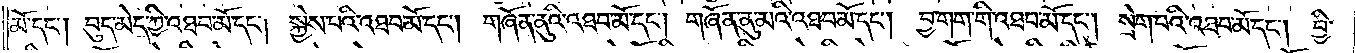མོ་དང༌། བུད་མེད་ཀྱི་འཐབ་མོ་དང༌། སྐྱེས་པའི་འཐབ་མོ་དང༌། གཞོན་ནུའི་འཐབ་མོ་དང༌། གཞོན་ནུ་མའི་འཐབ་མོ་དང༌། བྱ་གག་གི་འཐབ་མོ་དང༌། སྲེག་པའི་འཐབ་མོ་དང༌། བྱི་
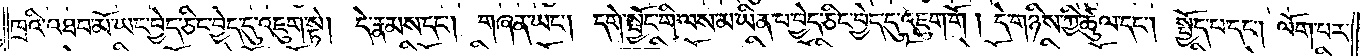ཁྲའི་འཐབ་མོ་ཡང་བྱེད་ཅིང་བྱེད་དུ་འཇུག་སྟེ། དེ་རྣམས་དང༌། གཞན་ཡང༌། དགེ་སྦྱོང་གི་ལས་མ་ཡིན་པ་བྱེད་ཅིང་བྱེད་དུ་འཇུག་གོ །དེ་གཉིས་ཀྱི་ཚུལ་དང༌། སྤྱོད་པ་དང༌། ལོག་པར་
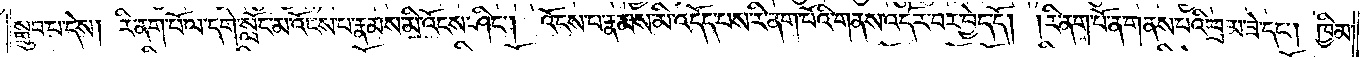སྒྲུབ་པ་དེས། རི་ནག་པོ་ལ་དགེ་སློང་མ་འོངས་པ་རྣམས་མི་འོངས་ཤིང༌། འོངས་པ་རྣམས་མི་འདོད་པས་རི་ནག་པོའི་གནས་འདོར་བར་བྱེད་དོ། །རི་ནག་པོ་ན་གནས་པའི་བྲམ་ཟེ་དང༌། ཁྱིམ་
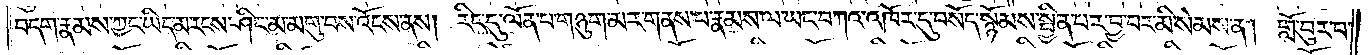བདག་རྣམས་ཀྱང་ཡིད་མ་རངས་ཤིང་མ་མགུ་བས་འོངས་ནས། རིང་དུ་ལོན་པ་གཉུག་མར་གནས་པ་རྣམས་ལ་ཡང་བཀའ་འཁོར་དུ་བསོད་སྙོམས་སྦྱིན་པར་བྱ་བར་མི་སེམས་ན། གློ་བུར་བ་
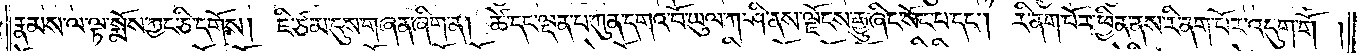རྣམས་ལ་ལྟ་སྨོས་ཀྱང་ཅི་དགོས། ཇི་ཙམ་དུས་གཞན་ཞིག་ན། ཚེ་དང་ལྡན་པ་ཀུན་དགའ་བོ་ཡུལ་ཀ་ཤི་ནས་ལྗོངས་རྒྱུ་ཞིང་སོང་བ་དང༌། རི་ནག་པོར་ཕྱིན་ནས་རི་ནག་པོར་འདུག་གོ །
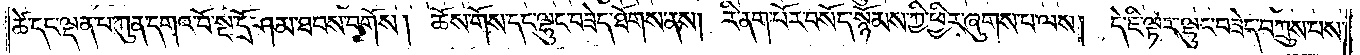ཚེ་དང་ལྡན་པ་ཀུན་དགའ་བོ་སྔ་དྲོ་ཤམ་ཐབས་བགོས། ཆོས་གོས་དང་ལྷུང་བཟེད་ཐོགས་ནས། རི་ནག་པོར་བསོད་སྙོམས་ཀྱི་ཕྱིར་ཞུགས་པ་ལས། དེ་ཇི་ལྟར་ལྷུང་བཟེད་བཀྲུས་པས་
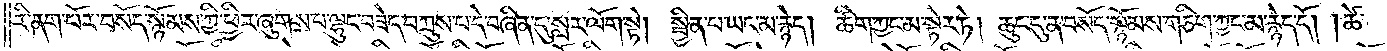རི་ནག་པོར་བསོད་སྙོམས་ཀྱི་ཕྱིར་ཞུགས་པ་ལྷུང་བཟེད་བཀྲུས་པ་དེ་བཞིན་དུ་སླར་ལོག་སྟེ། སྦྱིན་པ་ཡང་མ་རྙེད། ཚིག་ཀྱང་མ་སྟེར་ཏེ། ཆུང་དུ་ན་བསོད་སྙོམས་གཅིག་ཀྱང་མ་རྙེད་དོ། །ཚེ་
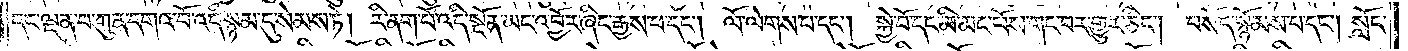དང་ལྡན་པ་ཀུན་དགའ་བོ་འདི་སྙམ་དུ་སེམས་ཏེ། རི་ནག་པོ་འདི་སྔོན་ཡང་འབྱོར་ཞིང་རྒྱས་པ་དང༌། ལོ་ལེགས་པ་དང༌། སྐྱེ་བོ་དང་མི་མང་པོས་གང་བར་གྱུར་ཅིང༌། བསོད་སྙོམས་པ་དང༌། སློང་
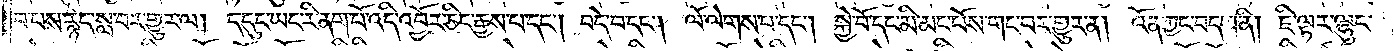བ་པས་རྙེད་སླ་བར་གྱུར་ལ། ད་དུང་ཡང་རི་ནག་པོ་འདི་འབྱོར་ཅིང་རྒྱས་པ་དང༌། བདེ་བ་དང༌། ལོ་ལེགས་པ་དང༌། སྐྱེ་བོ་དང་མི་མང་པོས་གང་བར་གྱུར་ན། འོན་ཀྱང་བདག་ནི། ཇི་ལྟར་ལྷུང་
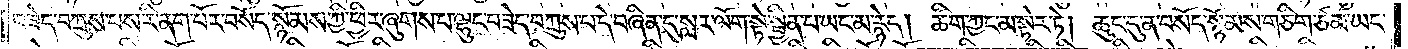བཟེད་བཀྲུས་པས་རི་ནག་པོར་བསོད་སྙོམས་ཀྱི་ཕྱིར་ཞུགས་པ་ལྷུང་བཟེད་བཀྲུས་པ་དེ་བཞིན་དུ་སླར་ལོག་སྟེ་སྦྱིན་པ་ཡང་མ་རྙེད། ཚིག་ཀྱང་མ་སྟེར་ཏེ། ཆུང་དུ་ན་བསོད་སྙོམས་གཅིག་ཙམ་ཡང་
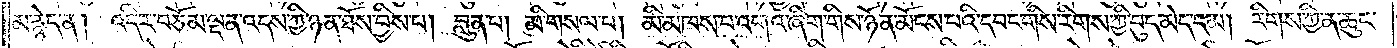མ་རྙེད་ན། འདིར་བཅོམ་ལྡན་འདས་ཀྱི་ཉན་ཐོས་བྱིས་པ། བླུན་པ། མི་གསལ་པ། མི་མཁས་པ་འགའ་ཞིག་གིས་ཉོན་མོངས་པའི་དབང་གིས་རིགས་ཀྱི་བུད་མེད་དམ། རིགས་ཀྱི་ན་ཆུང་
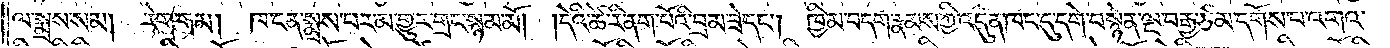ལ་སྨྲས་སམ། རེག་གམ། ཁ་ངན་སྨྲས་པར་མ་གྱུར་གྲང་སྙམ་མོ། །དེའི་ཚེ་རི་ནག་པོའི་བྲམ་ཟེ་དང༌། ཁྱིམ་བདག་རྣམས་ཀྱི་འདུན་ཁང་དུ་དགེ་བསྙེན་ལྔ་བརྒྱ་ཙམ་དགོས་པ་འགའ་
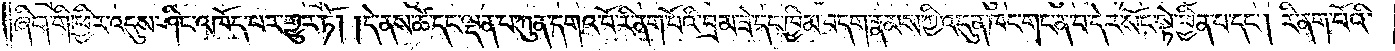ཞིག་གི་ཕྱིར་འདུས་ཤིང་འཁོད་པར་གྱུར་ཏོ། །དེ་ནས་ཚེ་དང་ལྡན་པ་ཀུན་དགའ་བོ་རི་ནག་པོའི་བྲམ་ཟེ་དང་ཁྱིམ་བདག་རྣམས་ཀྱི་འདུན་ཁང་གང་ན་བ་དེར་སོང་སྟེ་ཕྱིན་པ་དང༌། རི་ནག་པོའི་
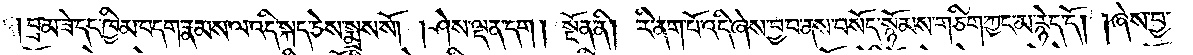།བྲམ་ཟེ་དང་ཁྱིམ་བདག་རྣམས་ལ་འདི་སྐད་ཅེས་སྨྲས་སོ། །ཤེས་ལྡན་དག། སྔོན་ནི། རི་ནག་པོ་འདི་ཞེས་བྱ་བ་ནས་བསོད་སྙོམས་གཅིག་ཀྱང་མ་རྙེད་དོ། །ཞེས་བྱ་
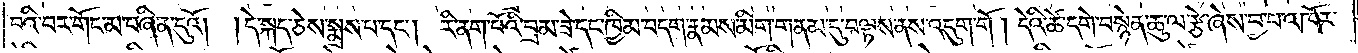བའི་བར་གོང་མ་བཞིན་དུའོ། །དེ་སྐད་ཅེས་སྨྲས་པ་དང༌། རི་ནག་པོའི་བྲམ་ཟེ་དང་ཁྱིམ་བདག་རྣམས་མིག་གནམ་དུ་བལྟས་ནས་འདུག་གོ །དེའི་ཚེ་དགེ་བསྙེན་ཆུ་ལ་རྩེ་ཞེས་བྱ་བ་འཁོར་
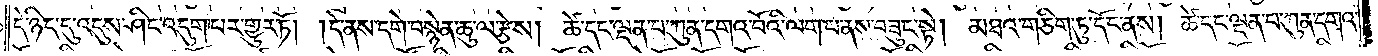དེ་ཉིད་དུ་འདུས་ཤིང་འདུག་པར་གྱུར་ཏོ། །དེ་ནས་དགེ་བསྙེན་ཆུ་ལ་རྩེས། ཚེ་དང་ལྡན་པ་ཀུན་དགའ་བོའི་ལག་པ་ནས་བཟུང་སྟེ། མཐའ་གཅིག་ཏུ་དོང་ནས། ཚེ་དང་ལྡན་པ་ཀུན་དགའ་
